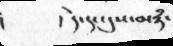།     ། དེ་དང་དུས་མཉཾ་
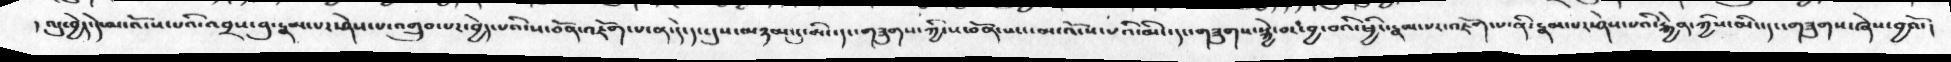།འདུ་བྱེད་དེ་མ་འོངས་པའི་འབྲས་བུ་རྣམ་པར་ཤེས་པ་འགྲུབ་པར་བྱེད་པའི་ས་བོན་འཇོག་པ་ན་དེ་དང་དུས་མཉམ་དུ་མིང་དང་གཟུགས་ཀྱི་ས་བོན་ཡང་མ་འོངས་པའི་མིང་དང་གཟུགས་སྐྱེ་བར་བྱ་བའི་ཕྱིར་རྣམ་པར་འཇོག་པ་ནི་རྣམ་པར་ཤེས་པའི་རྐྱེན་ཀྱིས་མིང་དང་གཟུགས་ཞེས་བྱའོ་།
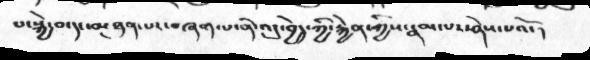པ་སྐྱེ་བ་དང་མཐུན་པར་བཞག་པ་ནི་འདུ་བྱེད་ཀྱི་རྐྱེན་ཀྱིས་རྣམ་པར་ཤེས་པའོ་།
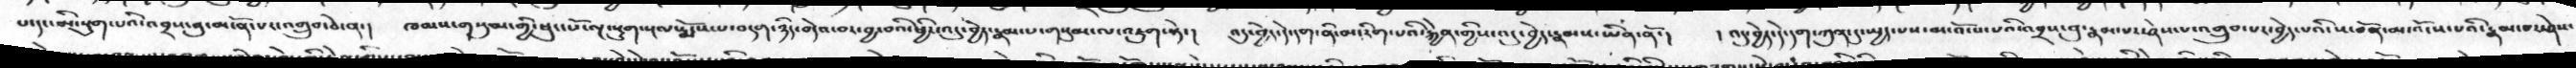པ་དང་མི་སྡུག་པའི་འབྲས་བུ་མངོན་པར་འགྲུབ་ཅེ་ན་།  ཁམས་གསུམ་གྱི་ཕུང་པོ་ལྔ་སྡུག་སྔལ་སྨོས་པ་བདག་ཉིད་བདེའ་བར་བྱ་བའི་ཕྱིར་འདུ་བྱེད་རྣམ་པ་གསུམ་ལ་འཇུག་སྟེ་།  འདུ་བྱེད་དེ་དག་ནི་མ་རིག་པའི་རྐྱེན་གྱིས་འདུ་བྱེད་རྣམས་ཡིན་ནོ་།  ། འདུ་བྱེད་དེ་དག་ཀུན་དུ་སྤྱད་པས་མ་འོངས་པའི་འབྲས་བུ་རྣམ་པར་ཤེས་པ་འགྲུབ་པར་བྱེད་པའི་ས་བོན་མ་འོངས་པའི་རྣམ་པར་ཤེས་
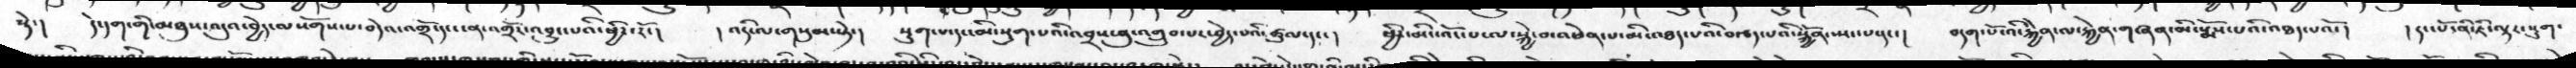སྟེ་།   དེ་དག་གི་མཐུས་འདུའ་བྱེད་ལསོགས་པ་བདེའ་འགྲོ་དང་ངན་འགྲོར་འབྱུང་པའི་ཕྱིར་རོ་།  །འདི་ལ་གསུམ་སྟེ་།  སྡུག་པ་དང་མི་སྡུག་པའི་འབྲས་བུ་འགྲུབ་པར་བྱེད་པའི་ཚུལ་དང་།  ཕྱིར་མི་འོང་པ་ལ་སྐྱེ་བ་འཕེན་པ་མི་འཐད་པའི་བརྩད་པའི་སྐྱོན་སྤང་པ་དང་།  བདག་པོ་འི་རྐྱེན་ལ་རྐྱེན་གཞན་མི་སྨོས་པའི་འཐད་པའོ་།   དང་པོ་ནི་ཇི་ལྟར་སྡུག་
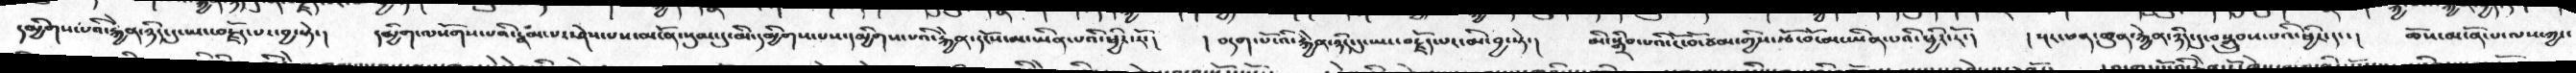དམྱིགས་པའི་རྐྱེན་ཉིད་དུ་ཡང་བརྗོད་པ་བྱ་སྟེ་།  དམྱིག་ལསོགས་པའི་རྣམ་པར་ཤེས་པས་མངོན་སུམ་དུ་མི་དམྱིགས་པས་དམྱིགས་པའི་རྐྱེན་དངོས་མ་ཡིན་པའི་ཕྱིར་རོ་།  །བདག་པོ་འི་རྐྱེན་ཉིད་དུ་ཡང་བརྗོད་པར་མི་བྱ་སྟེ་།  མི་སྒྲིབ་པའི་ངོ་བོ་ཙམ་གྱིས་རྩོ་བོ་མ་ཡིན་པའི་ཕྱིར་རོ་།  །སྔར་ཕན་ཚུན་རྐྱེན་ཉིད་དུ་བསྒྲུབས་པའི་ཕྱིར་དང་།  ཆོས་མངོན་པ་ལས་ཀྱང་
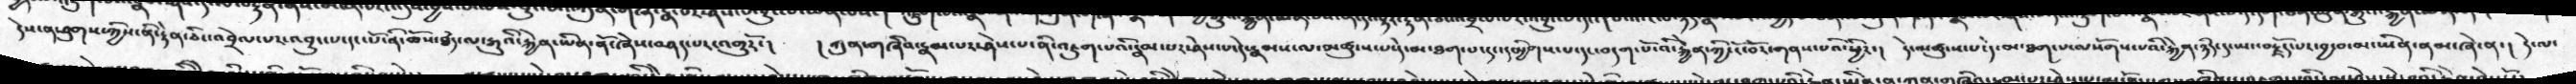དེས་ན་ཐུགས་ཀྱིས་ནི་རྟེན་ཅིང་འབྲེལ་པར་འབྱུང་པ་དང་པོ་ནི་ཆོས་ཐདཾ་ལ་རྒྱུའི་རྐྱེན་ཡིན་ནོ་ཞེས་བཤད་པར་འགྱུརོ་།  །ཀུན་གཞིའ་རྣམ་པར་ཤེས་པ་ནི་འཇུག་པའི་རྣམ་པར་ཤེས་པ་དེ་རྣམས་ལ་མཚུངས་པ་དེ་མ་ཐག་པ་དང་དམྱིགས་པ་དང་བདག་པོ་འི་རྐྱེན་ཀྱི་ངོ་བོར་གནས་པའི་ཕྱིར་།  དེ་མཚུངས་པ་དེ་མ་ཐག་པ་ལསོགས་པའི་རྐྱེན་ཉིད་དུ་ཡང་བརྗོད་པར་བྱ་བ་མ་ཡིན་ནམ་ཞེ་ན་།  དེ་ལ་
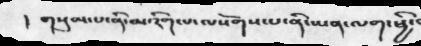།  གསུམ་པ་ནི་མ་རིག་པ་ལསོགས་པ་ནི་ཡན་ལག་ཕྱི་
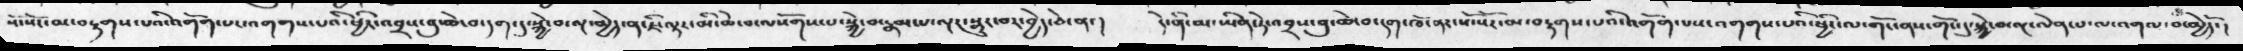སོ་སོར་མ་བརྟགས་པའི་འགོག་་པར་འགགས་པའི་ཕྱིར་འབྲས་བུ་ཆེ་བ་དག་དུ་སྐྱེ་བ་ལྔ་མྱེད་ན་ཇི་ལྟར་མི་ཆེ་བ་ལསོགས་པ་སྐྱེ་བ་རྣམ་པ་ལྔར་སྡུར་བར་བྱེད་ཅེ་ན་།   དེ་ནི་མ་ཡིན་ཏེ་འབྲས་བུ་ཆེ་བ་དག་ཁོ་ནར་སོ་སོར་མ་བརྟགས་པའི་འགོག་པས་འགགས་པའི་ཕྱིར་ལ་གོང་ནས་གོང་དུ་སྐྱེ་བ་ལྔ་ལེན་པ་ལ་འགལ་བ་མྱེདོ་།
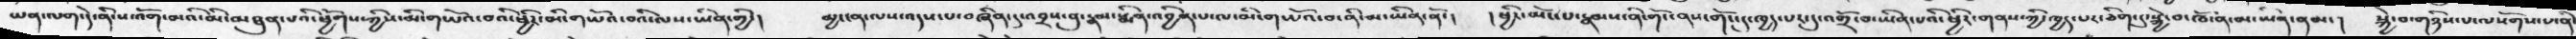ཡན་ལག་དེ་ནི་ས་འོག་མའི་མི་མཐུན་པའི་ཕྱོགས་ཀྱིས་མི་གཡོའ་བའི་ཕྱིར་མི་གཡོའ་བའི་ལས་ཡིན་གྱི་།  མྱ་ངན་ལས་འདས་པ་བཞིན་དུ་འབྲས་བུ་རྣམ་སྨིན་འབྱིན་པ་ལ་མི་གཡོའ་བ་ནི་མ་ཡིན་ནོ་།  །ཕྱིར་མོང་པ་རྣམས་ནི་གོང་ནས་གོང་དུ་ཁྱད་པར་དུ་འགྲོ་བ་ཡིན་པའི་ཕྱིར་གནས་ཀྱི་ཁྱད་པར་ཅིག་དུ་སྐྱེ་བ་ཁོ་ན་མ་ཡིན་ནམ་།  སྐྱེ་བ་གཉིས་པ་ལསོགས་པ་ནི་
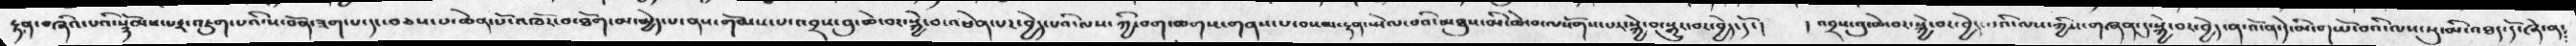རྟན་བཞིའ་པའི་སྙོམས་པར་འཇུག་པའི་ས་བོན་ཟག་པ་དང་བཅས་པ་ཆེན་པོ་འཁོར་བ་ཐོག་མ་མྱེད་པ་ནས་གོམས་པ་འབྲས་བུ་ཆེ་བར་སྐྱེ་བ་འཕེན་པར་བྱེད་པའི་ལས་ཀྱི་བག་ཆགས་གནས་པ་བསམ་རྟན་སྤེལ་བའི་མཐུས་མི་ཆེ་བ་ལསོགས་པར་སྐྱེ་བ་སྒྱུར་པར་བྱེད་དོ་།   །འབྲས་བུ་ཆེ་བར་སྐྱེ་བར་བྱེད་པའི་ལས་ཀྱིས་གཞན་དུ་སྐྱེ་བར་བྱེད་ན་འོ་ན་དེ་མི་གཡོ་བའི་ལས་སུ་མི་འཐད་དོ་ཞེ་ན༴
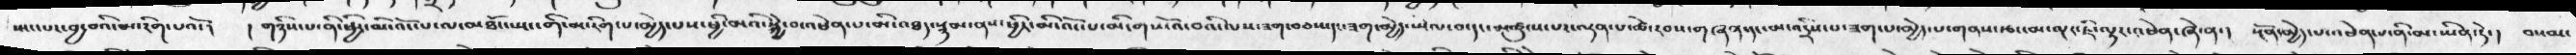སྤང་པར་བྱ་བའི་མ་རིག་པའོ་།  །གཉིས་པ་ནི་ཕྱིར་མི་འོང་པ་ལ་མཐོང་སྤང་གི་མ་རིག་པ་མྱེད་པས་ཕྱི་མའི་སྐྱེ་བ་འཕེན་པ་མི་འཐད་སྙམ་ནས་ཕྱིར་མི་འོང་པ་མི་གཡོའ་བའི་ལས་ཟག་བཅས་དང་ཟག་མྱེད་སྤེལ་བ་དང་མཚུངས་པར་ལྡན་པ་ཚེ་རབས་གཞན་དང་མ་འདྲིས་པ་ཟག་པ་མྱེད་པ་གནས་རྩང་མ་ལྔར་ཇི་ལྟར་འཕེན་ཞེ་ན་།  སྔོན་མྱེད་པ་འཕེན་པ་ནི་མ་ཡིན་ཏེ་།  བསམ་
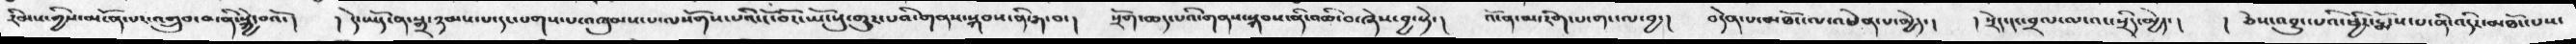རིམས་གྱིས་མངོན་པར་འགྲུབ་པ་ནི་སྐྱེ་བའོ་།  །དེ་ཡོད་ན་སྒྲ་ཉམས་པ་དང་པགས་པ་འཁུམས་པ་ལསོགས་པའི་ངོ་བོར་ཡོངསུ་གྱུར་པའི་གནས་སྐབས་ནི་རྒ་བ་།  སྲོག་ཆད་པའི་གནས་སྐབས་ནི་འཆི་བ་ཞེས་བྱ་སྟེ་།  འོ་ན་མ་རིག་པ་གང་ལ་བྱ་།  བདེན་པ་མཐོང་ལ་འཕེན་པ་མྱེད་།  །སྲེད་དང་བྲལ་ལ་འང་སྲིད་མྱེད་།  །ཅེས་འབྱུང་པའི་ཕྱིར་རྨོངས་པ་ནི་འདིར་མཐོང་པས་
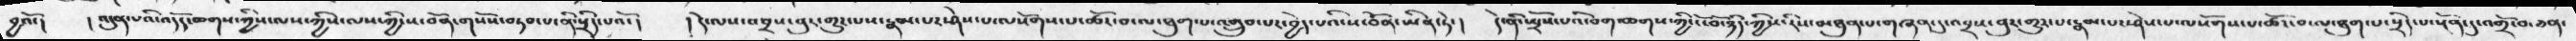བྱའོ་།  །འདུན་པའི་འདོད་ཆགས་ཀྱིས་ལས་ཀྱིས་ལས་ཀྱི་ས་བོན་གསོས་བཏབ་པ་ནི་སྲིད་པའོ་།  །དེ་ལས་འབྲས་བུར་གྱུར་པས་རྣམ་པར་ཤེས་པ་ལསོགས་པ་ཚོར་བ་ལ་ཐུག་པ་འགྲུབ་པར་བྱེད་པའི་ས་བོན་ཡིན་ཏེ་།  དེ་ནི་སྤྲོས་པའི་བག་ཆགས་ཀྱི་ངོ་བོ་ཉིད་ཀྱིས་རིས་མཐུན་པ་གཞན་དུ་འབྲས་བུར་གྱུར་པ་རྣམ་པར་ཤེས་པ་ལསོགས་པ་ཚོར་བ་ལ་ཐུག་པ་སྲིད་པ་སྔོན་དུ་འགྲོ་བ་ཅན་
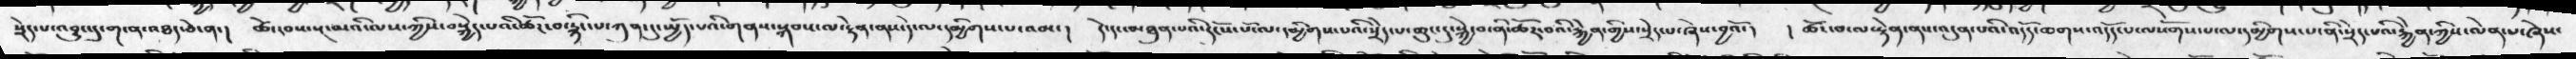སྲེད་པ་འབྱུང་དུ་ག་ན་འཐད་ཅེ་ན་།  ཚེ་རབས་སྔ་མའི་ལས་ཀྱིས་བསྐྱེད་པའི་ཚོར་བ་རྙིང་པ་ཀུན་དུ་སྤྱོད་པའི་གནས་སྐབས་ལ་རྟེན་ནས་དེ་ལ་དམྱིགས་པ་འམ་།  དེ་དང་མཐུན་པའི་དངོས་པོ་ལ་དམྱིགས་པའི་སྲེད་པ་ཆུང་དུ་སྐྱེ་བ་ནི་ཚོར་བའི་རྐྱེན་གྱིས་སྲེད་པ་ཞེས་བྱའོ་།  །ཚོར་བ་ལ་རྟེན་ནས་འདུན་པའི་འདོད་ཆགས་འདོད་པ་ལསོགས་པ་ལ་དམྱིགས་པ་ནི་སྲེད་པའི་རྐྱེན་ཀྱིས་ལེན་པ་ཞེས་
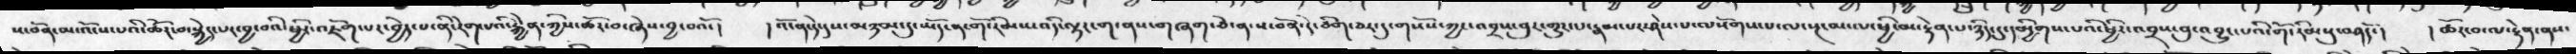ས་བོན་མ་འོངས་པའི་ཚོར་བ་སྐྱེད་པར་བྱ་བའི་ཕྱིར་འཇོག་པར་བྱེད་པ་ནི་རེག་པའི་རྐྱེན་ཀྱིས་ཚོར་བ་ཞེས་བྱ་བའོ་།  །འོ་ན་དེ་དུས་མཉམ་དུ་ཡོད་ན་གོ་རིམས་འདི་ལྟར་ག་ནས་གཞག་ཅེ་ན་ས་བོན་དེ་ཅིག་ཅར་དུ་གསོས་ཀྱང་འབྲས་བུར་གྱུར་་པ་རྣམ་པར་ཤེས་པ་ལསོགས་པ་ལ་སྔ་མ་ལ་ཕྱི་མ་རྟེན་པ་ཉིད་དུ་དམྱིགས་པའི་ཕྱིར་འབྲས་བུ་འབྱུང་པའི་གོ་རིམསུ་བཤདོ་།  །ཚོར་བ་ལ་རྟེན་ནས་
